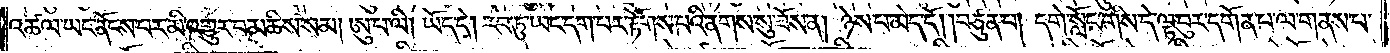འཚལ་ཡང་ནོངས་པར་མི་འགྱུར་བ་མཆིས་སམ། ཨུ་པ་ལི། ཡོད་དེ། རབ་ཏུ་ཡང་དག་པར་རྟོགས་པའི་ནགས་སུ་ཟོས་ན། ཉེས་པ་མེད་དོ། །བཙུན་པ། དགེ་སློང་གིས་དེ་ལྟ་བུར་དགོན་པ་ལ་གནས་པ་
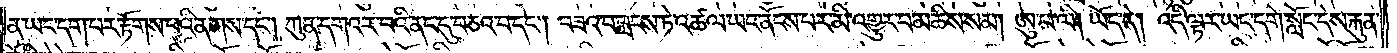ན་ཡང་དག་པར་རྟོགས་པའི་ནགས་དང༌། ཀུན་དགའ་ར་བའི་ནང་དུ་བཅའ་བ་དང༌། བཟའ་བ་བླངས་ཏེ་འཚལ་ཡང་ནོངས་པར་མི་འགྱུར་བ་མཆིས་སམ། ཨུ་པ་ལི། ཡོད་དེ། འདི་ལྟར་ཡང་དགེ་སློང་དེས་རྐུན་
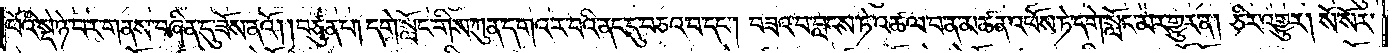པོའི་སྡེ་ཉེ་བར་གནས་བཞིན་དུ་ཟོས་ནའོ། །བཙུན་པ། དགེ་སློང་གིས་ཀུན་དགའ་ར་བའི་ནང་དུ་བཅའ་བ་དང༌། བཟའ་བ་བླངས་ཏེ་འཚལ་བ་ན་མཚན་འཕོས་ཏེ་དགེ་སློང་མར་གྱུར་ན། ཅིར་འགྱུར། སོ་སོར་
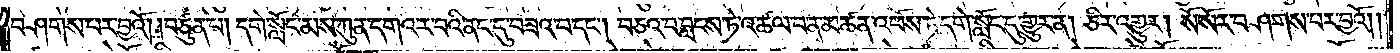བཤགས་པར་བྱའོ། །བཙུན་པ། དགེ་སློང་མས་ཀུན་དགའ་ར་བའི་ནང་དུ་བཟའ་བ་དང༌། བཅའ་བ་བླངས་ཏེ་འཚལ་བ་ན་མཚན་འཕོས་ཏེ་དགེ་སློང་དུ་གྱུར་ན། ཅིར་འགྱུར། སོ་སོར་བཤགས་པར་བྱའོ། །
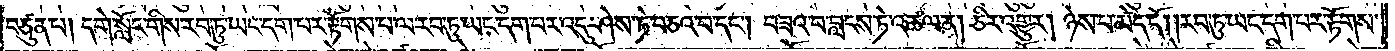བཙུན་པ། དགེ་སློང་གིས་རབ་ཏུ་ཡང་དག་པར་རྟོགས་པ་ལ་རབ་ཏུ་ཡང་དག་པར་འདུ་ཤེས་ཏེ་བཅའ་བ་དང༌། བཟའ་བ་བླངས་ཏེ་འཚལ་ན། ཅིར་འགྱུར། ཉེས་པ་མེད་དོ། །རབ་ཏུ་ཡང་དག་པར་རྟོགས་
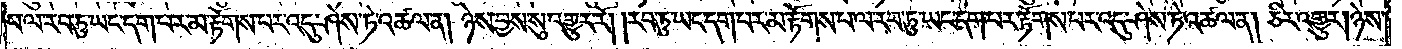པ་ལ་རབ་ཏུ་ཡང་དག་པར་མ་རྟོགས་པར་འདུ་ཤེས་ཏེ་འཚལ་ན། ཉེས་བྱས་སུ་འགྱུར་རོ། །རབ་ཏུ་ཡང་དག་པར་མ་རྟོགས་པ་ལ་རབ་ཏུ་ཡང་དག་པར་རྟོགས་པར་འདུ་ཤེས་ཏེ་འཚལ་ན། ཅིར་འགྱུར། ཉེས་
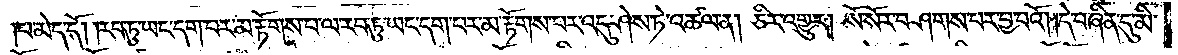།པ་མེད་དོ། །རབ་ཏུ་ཡང་དག་པར་མ་རྟོགས་པ་ལ་རབ་ཏུ་ཡང་དག་པར་མ་རྟོགས་པར་འདུ་ཤེས་ཏེ་འཚལ་ན། ཅིར་འགྱུར། སོ་སོར་བཤགས་པར་བྱ་བའོ། །དེ་བཞིན་དུ་མི་
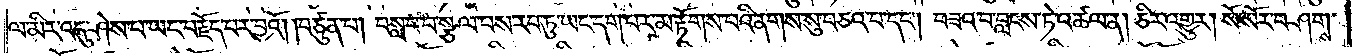ལ་མིར་འདུ་ཤེས་པ་ཡང་བརྗོད་པར་བྱའོ། །བཙུན་པ། བསླབ་པ་སྩལ་པས་རབ་ཏུ་ཡང་དག་པར་མ་རྟོགས་པའི་ནགས་སུ་བཅའ་བ་དང༌། བཟའ་བ་བླངས་ཏེ་འཚལ་ན། ཅིར་འགྱུར། སོ་སོར་བཤགས་
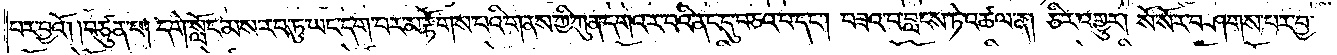པར་བྱའོ། །བཙུན་པ། དགེ་སློང་མས་རབ་ཏུ་ཡང་དག་པར་མ་རྟོགས་པའི་གནས་ཀྱི་ཀུན་དགའ་ར་བའི་ནང་དུ་བཅའ་བ་དང༌། བཟའ་བ་བླངས་ཏེ་འཚལ་ན། ཅིར་འགྱུར། སོ་སོར་བཤགས་པར་བྱ་
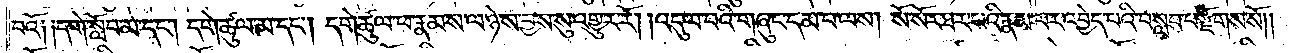བའོ༑ ༑དགེ་སློབ་མ་དང༌། དགེ་ཚུལ་མ་དང༌། དགེ་ཚུལ་ཕ་རྣམས་ལ་ཉེས་བྱས་སུ་འགྱུར་རོ། །འདུལ་བའི་གཞུང་དམ་པ་ལས། སོ་སོར་ཐར་པའི་རྣམ་པར་འབྱེད་པའི་བསླབ་པ་རྫོགས་སོ༎
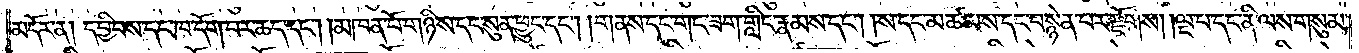མདོར་ན། དབྱིབས་དང་ཁ་དོག་བར་ཆད་དང༌། །མཁན་པོ་གཉིས་དང་སུན་ཕྱུང་དང༌། །གནས་དང་གང་ཟག་གླིང་རྣམས་དང༌། །ས་དང་མཚམས་དང་བསྙེན་པར་རྫོགས། །ལྔ་པ་དང་ནི་ལས་གསུམ་
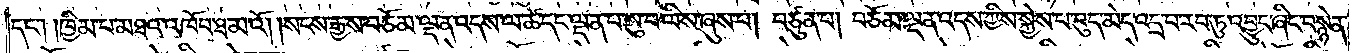དང༌། །ཁྱིམ་པ་མཐའ་འཁོབ་ཐ་མའོ། །སངས་རྒྱས་བཅོམ་ལྡན་འདས་ལ་ཚེ་དང་ལྡན་པ་ཨུ་པ་ལིས་ཞུས་པ། བཙུན་པ། བཅོམ་ལྡན་འདས་ཀྱིས་སྐྱེས་པ་བུད་མེད་འདྲ་བ་རབ་ཏུ་འབྱུང་ཞིང་བསྙེན་
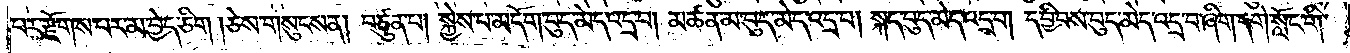པར་རྫོགས་པར་མ་བྱེད་ཅིག །ཅེས་གསུངས་ན། བཙུན་པ། སྐྱེས་པ་མདོག་བུད་མེད་འདྲ་བ། མཚན་མ་བུད་མེད་འདྲ་བ། སྐད་བུད་མེད་འདྲ་བ། དབྱིབས་བུད་མེད་འདྲ་བ་ཞིག་དགེ་སློང་གི་
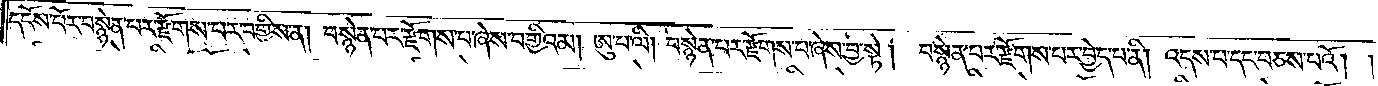དངོས་པོར་བསྙེན་པར་རྫོགས་པར་བགྱིས་ན། བསྙེན་པར་རྫོགས་པ་ཞེས་བགྱིའམ། ཨུ་པ་ལི། བསྙེན་པར་རྫོགས་པ་ཞེས་བྱ་སྟེ། བསྙེན་པར་རྫོགས་པར་བྱེད་པ་ནི། འདས་པ་དང་བཅས་པའོ། །
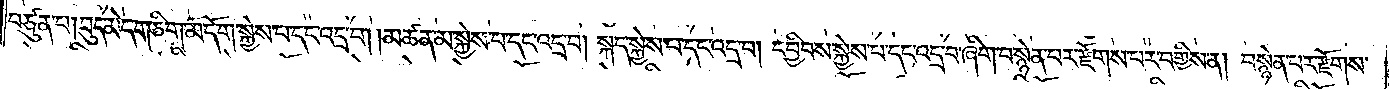བཙུན་པ། བུད་མེད་གཅིག་མདོག་སྐྱེས་པ་དང་འདྲ་བ། །མཚན་མ་སྐྱེས་པ་དང་འདྲ་བ། སྐད་སྐྱེས་པ་དང་འདྲ་བ། དབྱིབས་སྐྱེས་པ་དང་འདྲ་བ་ཞིག་བསྙེན་པར་རྫོགས་པར་བགྱིས་ན། བསྙེན་པར་རྫོགས་
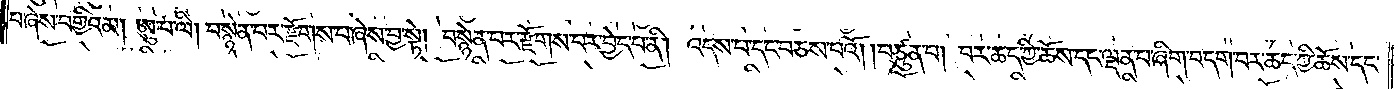པ་ཞེས་བགྱིའམ། ཨུ་པ་ལི། བསྙེན་པར་རྫོགས་པ་ཞེས་བྱ་སྟེ། བསྙེན་པར་རྫོགས་པར་བྱེད་པ་ནི། འདས་པ་དང་བཅས་པའོ། །བཙུན་པ། བར་ཆད་ཀྱི་ཆོས་དང་ལྡན་པ་ཞིག་བདག་བར་ཆད་ཀྱི་ཆོས་དང་
